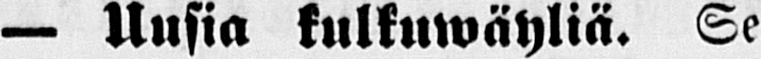— Uusia kulkuwäyliä. Se-
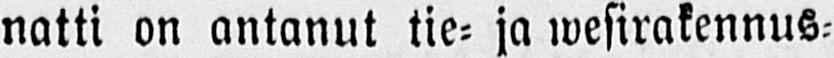natti on antanut tie- ja wesirakennus-
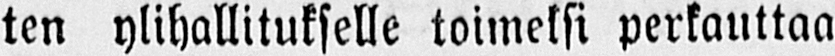ten ylihallitukselle toimeksi perkauttaa
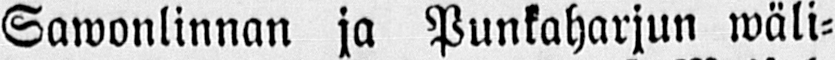Sawonlinnan ja Punkaharjun wäli-
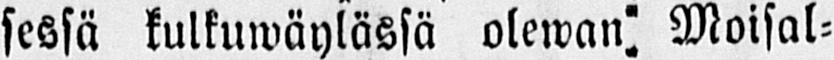sessä kulkuwäylässä olewan Moisal-
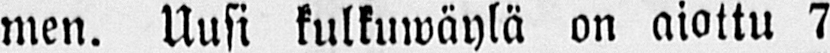men. Uusi kulkuwäylä on aiottu 7
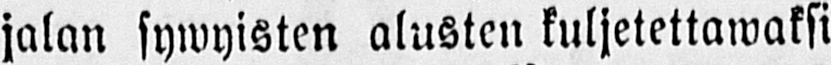jalan sywyisten alusten kuljetettawaksi
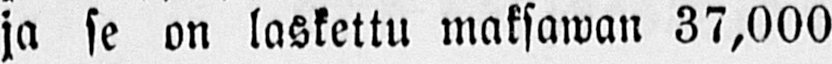ja se on laskettu maksawan 37,000
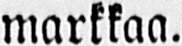markkaa.
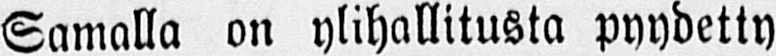Samalla on ylihallitusta pyydetty
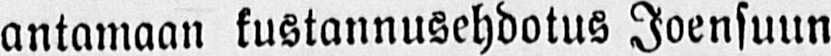antamaan kustannusehdotus Joensuun
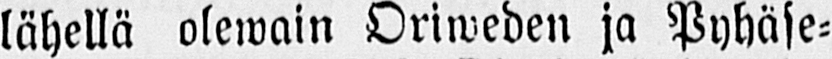lähellä olewain Oriweden ja Pyhäse-
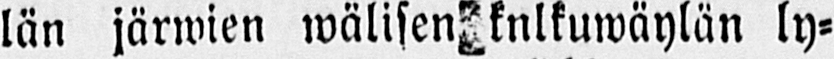län järwien wälisen knlkuwäylän ly-
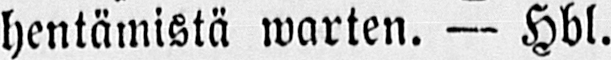hentämistä warten. — Hbl.
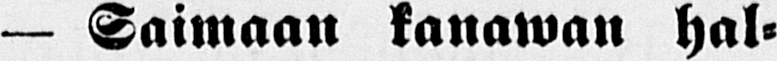— Saimaan kanawan hal-
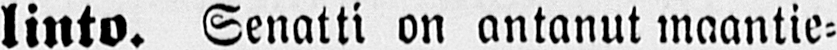linto. Senatti on antanut maantie-
